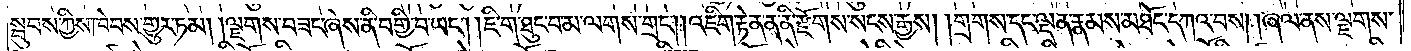སྦུབས་ཀྱིས་ཁེབས་གྱུར་ཏམ། །ལྗགས་བཟང་ཞེས་ནི་བགྱི་བ་ཡང༌། །ཇི་ག་ཐུང་བ་མ་ལགས་གྲང༌། །འཇིག་རྟེན་ན་ནི་རྫོགས་སངས་རྒྱས། །གྲགས་དང་ལྡན་རྣམས་མཐོང་དཀའ་བས། །ཞལ་ནས་ལྗགས་
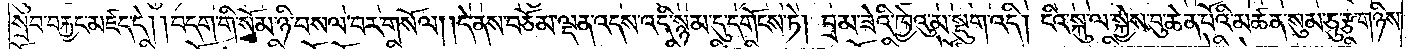སྲབ་བརྐྱང་མཇེད་དེ། །བདག་གི་སོམ་ཉི་བསལ་བར་གསོལ། །དེ་ནས་བཅོམ་ལྡན་འདས་འདི་སྙམ་དུ་དགོངས་ཏེ། བྲམ་ཟེའི་ཁྱེའུ་མ་སྡུག་འདི། ངའི་སྐུ་ལ་སྐྱེས་བུ་ཆེན་པོའི་མཚན་སུམ་ཅུ་རྩ་གཉིས་
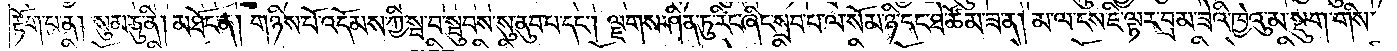རྟོག་པ་ན། སུམ་ཅུ་ནི། མཐོང་ན། གཉིས་པོ་འདོམས་ཀྱི་སྦ་བ་སྦུབས་སུ་ནུབ་པ་དང༌། ལྗགས་ཤིན་ཏུ་རིང་ཞིང་སྲབ་པ་ལ་སོམ་ཉི་དང་ཐེ་ཚོམ་ཟ་ན། མ་ལ་ངས་ཇི་ལྟར་བྲམ་ཟེའི་ཁྱེའུ་མ་སྡུག་གིས་
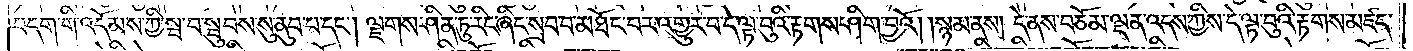བདག་གི་འདོམས་ཀྱི་སྦ་བ་སྦུབས་སུ་ནུབ་པ་དང༌། ལྗགས་ཤིན་ཏུ་རིང་ཞིང་སྲབ་པ་མཐོང་བར་འགྱུར་བ་དེ་ལྟ་བུའི་རྟགས་ཤིག་བྱའོ། །སྙམ་ནས། དེ་ནས་བཅོམ་ལྡན་འདས་ཀྱིས་དེ་ལྟ་བུའི་རྟགས་མཛད་
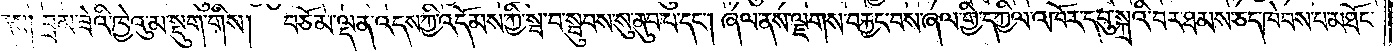ནས། བྲམ་ཟེའི་ཁྱེའུ་མ་སྡུག་གིས། བཅོམ་ལྡན་འདས་ཀྱི་འདོམས་ཀྱི་སྦ་བ་སྦུབས་སུ་ནུབ་པ་དང༌། ཞལ་ནས་ལྗགས་བརྐྱང་བས་ཞལ་གྱི་དཀྱིལ་འཁོར་དབུ་སྐྲའི་བར་ཐམས་ཅད་ཁེབས་པ་མཐོང་
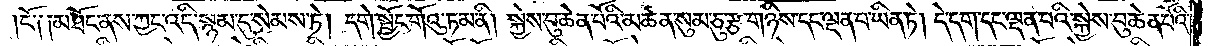ངོ ༑ ༑མཐོང་ནས་ཀྱང་འདི་སྙམ་དུ་སེམས་ཏེ། དགེ་སྦྱོང་གོའུ་ཏ་མ་ནི། སྐྱེས་བུ་ཆེན་པོའི་མཚན་སུམ་ཅུ་རྩ་གཉིས་དང་ལྡན་པ་ཡིན་ཏེ། དེ་དག་དང་ལྡན་པའི་སྐྱེས་བུ་ཆེན་པོའི་
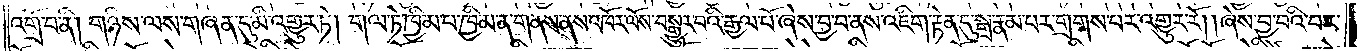འགྲོ་བ་ནི། གཉིས་ལས་གཞན་དུ་མི་འགྱུར་ཏེ། གལ་ཏེ་ཁྱིམ་པ་ཁྱིམ་ན་གནས་ནས་འཁོར་ལོས་བསྒྱུར་བའི་རྒྱལ་པོ་ཞེས་བྱ་བ་ནས་འཇིག་རྟེན་དུ་སྒྲ་རྣམ་པར་གྲགས་པར་འགྱུར་རོ། །ཞེས་བྱ་བའི་བར་
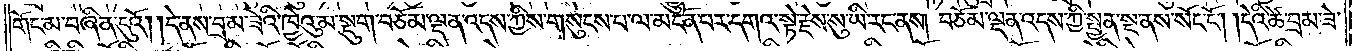གོང་མ་བཞིན་དུའོ། །དེ་ནས་བྲམ་ཟེའི་ཁྱེའུ་མ་སྡུག་བཅོམ་ལྡན་འདས་ཀྱིས་གསུངས་པ་ལ་མངོན་པར་དགའ་སྟེ་རྗེས་སུ་ཡི་རངས་ནས། བཅོམ་ལྡན་འདས་ཀྱིས་སྤྱན་སྔ་ནས་སོང་ངོ༌། །དེའི་ཚེ་བྲམ་ཟེ་
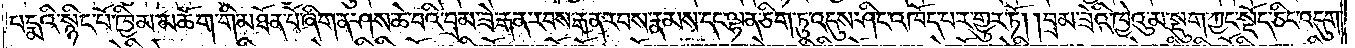པདྨའི་སྙིང་པོ་ཁྱིམ་མཆོག་གི་མཐོན་པོ་ཞིག་ན་ཤས་ཆེ་བའི་བྲམ་ཟེ་རྒན་རབས་རྒན་རབས་རྣམས་དང་ལྷན་ཅིག་ཏུ་འདུས་ཤིང་འཁོད་པར་གྱུར་ཏོ། །བྲམ་ཟེའི་ཁྱེའུ་མ་སྡུག་ཀྱང་སྡོད་ཅིང་འདུག་
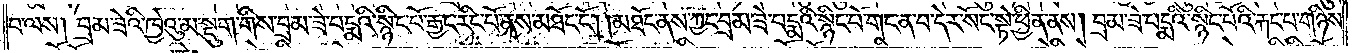པ་ལས། བྲམ་ཟེའི་ཁྱེའུ་མ་སྡུག་གིས་བྲམ་ཟེ་པདྨའི་སྙིང་པོ་རྒྱང་རིང་པོ་ནས་མཐོང་ངོ༌། །མཐོང་ནས་ཀྱང་བྲམ་ཟེ་པདྨའི་སྙིང་པོ་གང་ན་བ་དེར་སོང་སྟེ་ཕྱིན་ནས། བྲམ་ཟེ་པདྨའི་སྙིང་པོའི་རྐང་པ་གཉིས་
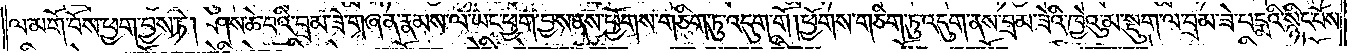ལ་མགོ་བོས་ཕྱག་བྱས་ཏེ། ཤས་ཆེ་བའི་བྲམ་ཟེ་གཞན་རྣམས་ལ་ཡང་ཕྱག་བྱས་ནས་ཕྱོགས་གཅིག་ཏུ་འདུག་གོ །ཕྱོགས་གཅིག་ཏུ་འདུག་ནས་བྲམ་ཟེའི་ཁྱེའུ་མ་སྡུག་ལ་བྲམ་ཟེ་པདྨའི་སྙིང་པོས་
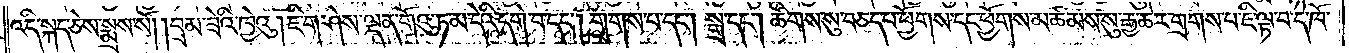འདི་སྐད་ཅེས་སྨྲས་སོ། །བྲམ་ཟེའི་ཁྱེའུ། ཇི་ག་ཤེས་ལྡན་གོའུ་ཏ་མ་དེའི་དགེ་བ་དང༌། གྲགས་པ་དང༌། སྒྲ་དང༌། ཚིགས་སུ་བཅད་པ་ཕྱོགས་དང་ཕྱོགས་མཚམས་སུ་རྒྱ་ཆེར་གྲགས་པ་ཇི་ལྟ་བ་དེ་ཁོ་
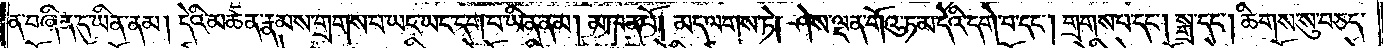ན་བཞིན་དུ་ཡིན་ནམ། དེའི་མཚན་རྣམས་གྲགས་པ་ཡང་ཡང་དག་པ་ཡིན་ནམ། མཁན་པོ། མད་ལགས་ཏེ། ཤེས་ལྡན་གོའུ་ཏ་མ་དེའི་དགེ་བ་དང༌། གྲགས་པ་དང༌། སྒྲ་དང༌། ཚིགས་སུ་བཅད་
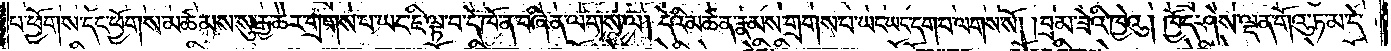པ་ཕྱོགས་དང་ཕྱོགས་མཚམས་སུ་རྒྱ་ཆེར་གྲགས་པ་ཡང་ཇི་ལྟ་བ་དེ་ཁོ་ན་བཞིན་ལགས་ལ། དེའི་མཚན་རྣམས་གྲགས་པ་ཡང་ཡང་དག་པ་ལགས་སོ། །བྲམ་ཟེའི་ཁྱེའུ། ཁྱོད་ཤེས་ལྡན་གོའུ་ཏ་མ་དེ་
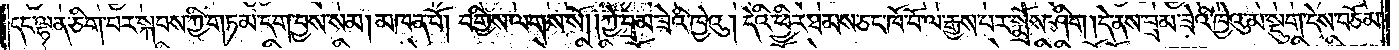དང་ལྷན་ཅིག་བར་སྐབས་ཀྱི་གཏམ་དག་བྱས་སམ། མཁན་པོ། བགྱིས་ལགས་སོ། །ཀྱེ་བྲམ་ཟེའི་ཁྱེའུ། དེའི་ཕྱིར་ཐམས་ཅད་ཁོ་བོ་ལ་རྒྱས་པར་སྨྲོས་ཤིག །དེ་ནས་བྲམ་ཟེའི་ཁྱེའུ་མ་སྡུག་དེས་བཅོམ་
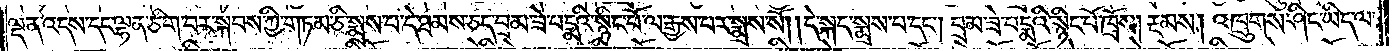ལྡན་འདས་དང་ལྷན་ཅིག་བར་སྐབས་ཀྱི་གཏམ་ཅི་སྨྲས་པ་དེ་ཐམས་ཅད་བྲམ་ཟེ་པདྨའི་སྙིང་པོ་ལ་རྒྱས་པར་སྨྲས་སོ། །དེ་སྐད་སྨྲས་པ་དང༌། བྲམ་ཟེ་པདྨའི་སྙིང་པོ་ཁྲོས། རྔམས། འཁྲུགས་ཤིང་ཡིད་ལ་
